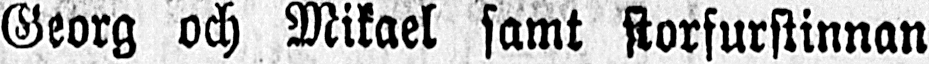Georg och Mikael samt storfurstinnan
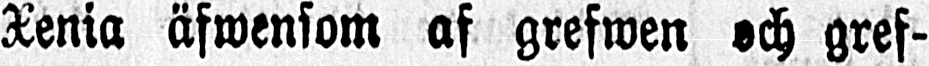Xenia äfwensom af grefwen och gref-
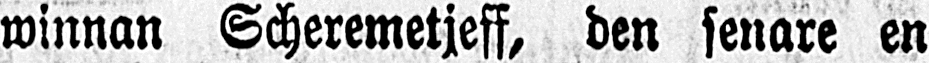winnan Scheremetjeff, den senare en
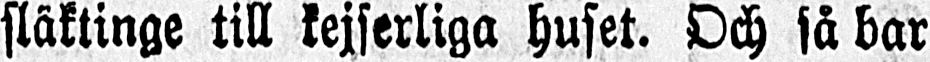släktinge till kejserliga huset. Och så bar
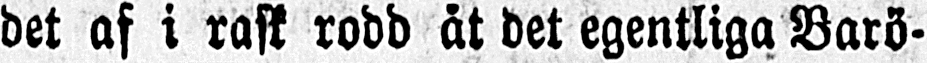det af i rask rodd åt det egentliga Barö-
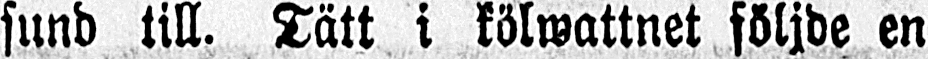sund till. Tätt i kölwattnet följde en
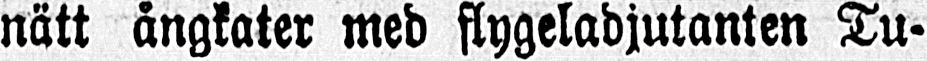nätt ångkater med flygeladjutanten Tu-
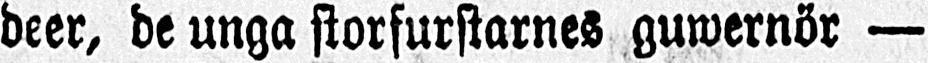deer, de unga storfurstarnes guwernör —
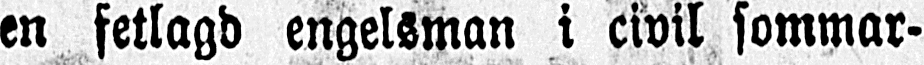en fetlagd engelsman i civil sommar-
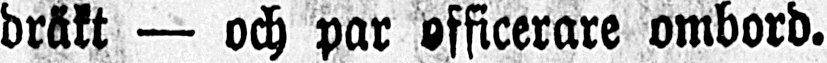dräkt — och par officerare ombord.
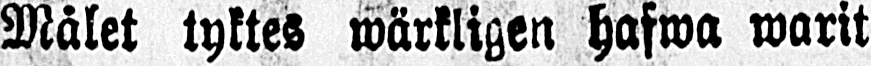Målet tyktes wärkligen hafwa warit
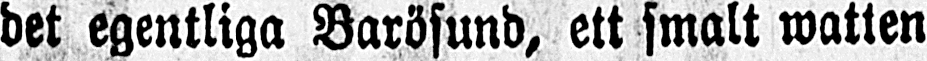det egentliga Barösund, ett smalt watten
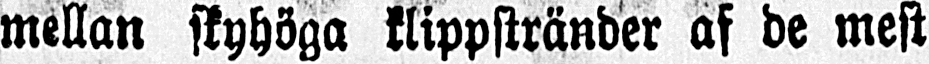mellan skyhöga klippstränder af de mest
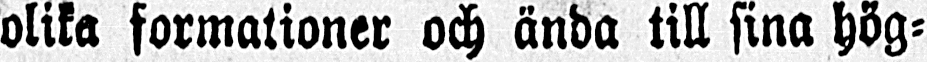olika formationer och ända till sina hög-
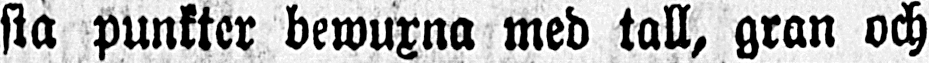sta punkter bewuxna med tall, gran och
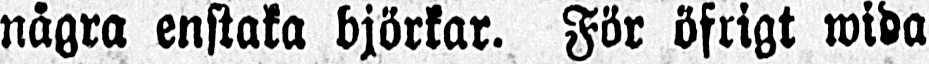några enstaka björkar. För öfrigt wida
